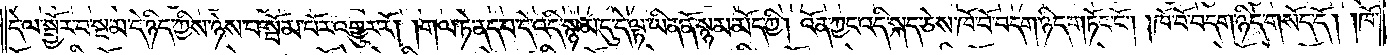དེ་ལ་སྦྱོར་བ་སྔ་མ་དེ་ཉིད་ཀྱིས་ཉེས་པ་སྦོམ་པོར་འགྱུར་རོ། །གལ་ཏེ་ནད་པ་དེ་འདི་སྙམ་དུ་དེ་ལྟ་ཡིན་ནོ་སྙམ་མོད་ཀྱི། འོན་ཀྱང་འདི་སྐད་ཅེས་ཁོ་བོ་བདག་ཉིད་གཏོང་ངོ༌། །ཁོ་བོ་བདག་ཉིད་གསོད་དོ། །ཁོ་
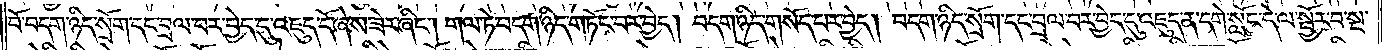བོ་བདག་ཉིད་སྲོག་དང་བྲལ་བར་བྱེད་དུ་འཇུད་དོ་ཞེས་ཟེར་ཞིང༌། གལ་ཏེ་བདག་ཉིད་གཏོང་བར་བྱེད། བདག་ཉིད་གསོད་པར་བྱེད། བདག་ཉིད་སྲོག་དང་བྲལ་བར་བྱེད་དུ་འཇུད་ན་དགེ་སློང་དེ་ལ་སྦྱོར་བ་སྔ་
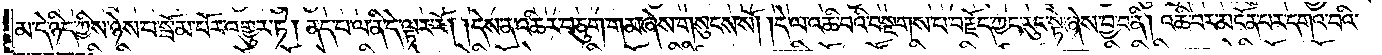མ་དེ་ཉིད་ཀྱིས་ཉེས་པ་སྦོམ་པོར་འགྱུར་ཏེ། ནད་པ་ལ་ནི་དེ་ལྟར་རོ། །དེས་ན་འཆིར་བཅུག་གམ་ཞེས་གསུངས་སོ། །དེ་ལ་འཆི་བའི་བསྔགས་པ་བརྗོད་ཀྱང་རུང་སྟེ་ཞེས་བྱ་བ་ནི། འཆི་བར་མངོན་པར་དགའ་བའི་
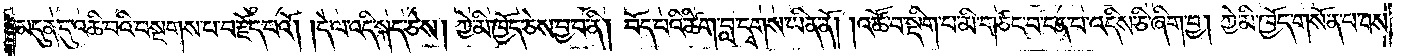མདུན་དུ་འཆི་བའི་བསྔགས་པ་བརྗོད་པའོ། །དེ་ལ་འདི་སྐད་ཅེས། ཀྱེ་མི་ཁྱོད་ཅེས་བྱ་བ་ནི། བོད་པའི་ཚིག་བླ་དྭགས་ཡིན་ནོ། །འཚོ་བ་སྡིག་པ་མི་གཙང་བ་ངན་པ་འདིས་ཅི་ཞིག་བྱ། ཀྱེ་མི་ཁྱོད་གསོན་པ་བས་
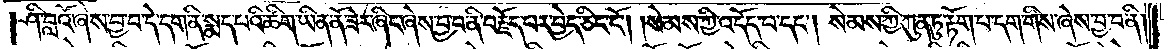ཤི་བླའོ་ཞེས་བྱ་བ་དེ་དག་ནི་སྨད་པའི་ཚིག་ཡིན་ནོ་ཟེར་ཞིང་ཞེས་བྱ་བ་ནི་བརྗོད་པར་བྱེད་ཅིང་ངོ༌། །སེམས་ཀྱི་འདོད་པ་དང༌། སེམས་ཀྱི་ཀུན་ཏུ་རྟོག་པ་དག་གིས་ཞེས་བྱ་བ་ནི།
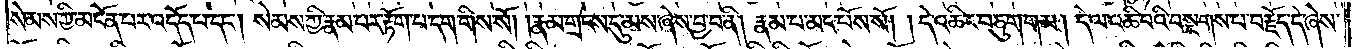སེམས་ཀྱི་མངོན་པར་འདོད་པ་དང༌། སེམས་ཀྱི་རྣམ་པར་རྟོག་པ་དག་གིས་སོ། །རྣམ་གྲངས་དུ་མས་ཞེས་བྱ་བ་ནི། རྣམ་པ་མང་པོས་སོ། །དེ་འཆིར་བཅུག་གམ། དེ་ལ་འཆི་བའི་བསྔགས་པ་བརྗོད་དེ་ཞེས་
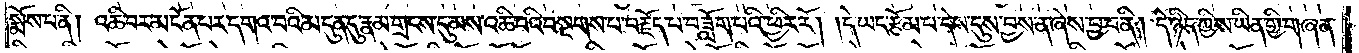སྨོས་པ་ནི། འཆི་བར་མངོན་པར་དགའ་བའི་མདུན་དུ་རྣམ་གྲངས་དུ་མས་འཆི་བའི་བསྔགས་པ་བརྗོད་པ་བཟློག་པའི་ཕྱིར་རོ། །དེ་ཡང་རྩོམ་པ་དེས་དུས་བྱས་ན་ཞེས་བྱ་བ་ནི། དེ་ཉིད་ཀྱིས་ཡིན་གྱི་གཞན་
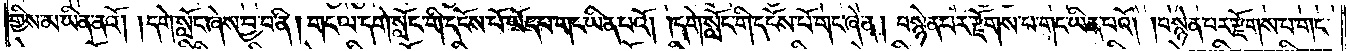གྱིས་མ་ཡིན་ནའོ། །དགེ་སློང་ཞེས་བྱ་བ་ནི། གང་ལ་དགེ་སློང་གི་དངོས་པོ་ཡོད་པ་གང་ཡིན་པའོ། །དགེ་སློང་གི་དངོས་པོ་གང་ཞེ་ན། བསྙེན་པར་རྫོགས་པ་གང་ཡིན་པའོ། །བསྙེན་པར་རྫོགས་པ་གང་
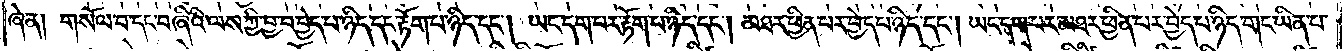ཞེ་ན། གསོལ་བ་དང་བཞིའི་ལས་ཀྱི་བྱ་བ་བྱེད་པ་ཉིད་དང་རྟོག་པ་ཉིད་དང༌། ཡང་དག་པར་རྟོག་པ་ཉིད་དང༌། མཐར་ཕྱིན་པར་བྱད་པ་ཉིད་དང༌། ཡང་དག་པར་མཐར་ཕྱིན་པར་བྱེད་པ་ཉིད་གང་ཡིན་པ་
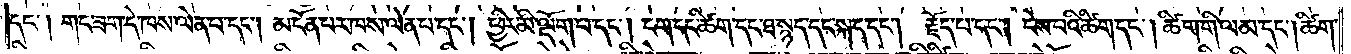དང༌། གང་ཟག་དེ་ཁས་ལེན་པ་དང༌། མངོན་པར་ཁས་ལེན་པ་དང༌། ཕྱིར་མི་ལྡོག་པ་དང༌། ངག་དང་ཚིག་དང་ཐ་སྙད་དང་སྐད་དང༌། རྗོད་པ་དང༌། ངེས་པའི་ཚིག་དང༌། ཚིག་གི་ལམ་དང༌། ཚིག་
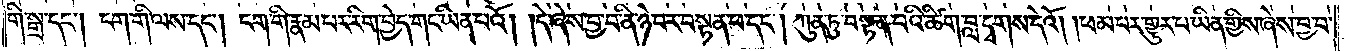གི་སྒྲ་དང༌། ངག་གི་ལས་དང༌། ངག་གི་རྣམ་པར་རིག་བྱེད་གང་ཡིན་པའོ། །དེ་ཞེས་བྱ་བ་ནི་ཉེ་བར་བསྟན་པ་དང༌། ཀུན་ཏུ་བསྟན་པའི་ཚིག་བླ་དྭགས་དེའོ། །ཕམ་པར་གྱུར་པ་ཡིན་གྱིས་ཞེས་བྱ་བ་
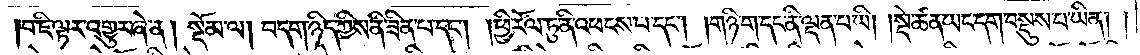བ་ཇི་ལྟར་འགྱུར་ཞེ་ན། སྡོམ་ལ། བདག་ཉིད་ཀྱིས་ནི་ཟིན་པ་དང༌། །ཕྱི་རོལ་ཏུ་ནི་འཕངས་པ་དང༌། །གཉི་ག་དང་ནི་ལྡན་པ་ཡི། །སྡེ་ཚན་ཡང་དག་བསྡུས་པ་ཡིན། །
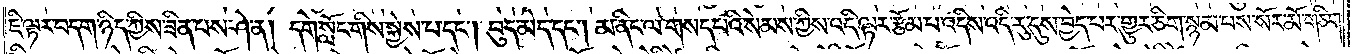ཇི་ལྟར་བདག་ཉིད་ཀྱིས་ཟིན་པས་ཤེ་ན། དགེ་སློང་གིས་སྐྱེས་པ་དང༌། བུད་མེད་དང༌། མ་ནིང་ལ་གསད་པའི་སེམས་ཀྱིས་འདི་ལྟར་རྩོམ་པ་འདིས་འདི་རུ་དུས་བྱེད་པར་གྱུར་ཅིག་སྙམ་པས་སོར་མོ་གཅིག་
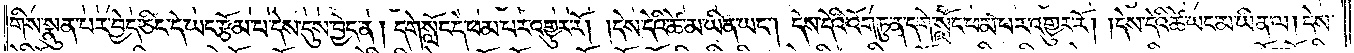གིས་སྣུན་པར་བྱེད་ཅིང་དེ་ཡང་རྩོམ་པ་དེས་དུས་བྱེད་ན། དགེ་སློང་དེ་ཕམ་པར་འགྱུར་རོ། །དེས་དེའི་ཚེ་མ་ཡིན་ཡང༌། དེས་དེའི་འོག་ཏུ་ན་དགེ་སློང་ཕམ་པར་འགྱུར་རོ། །དེས་དེའི་ཚེ་ཡང་མ་ཡིན་ལ། དེས་
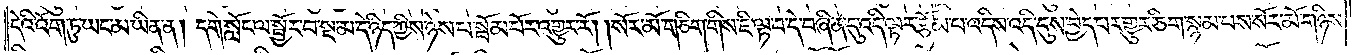དེའི་འོག་ཏུ་ཡང་མ་ཡིན་ན། དགེ་སློང་ལ་སྦྱོར་བ་སྔ་མ་དེ་ཉིད་ཀྱིས་ཉེས་པ་སྦོམ་པོར་འགྱུར་རོ། །སོར་མོ་གཅིག་གིས་ཇི་ལྟ་བ་དེ་བཞིན་དུ་འདི་ལྟར་རྩོམ་པ་འདིས་འདི་དུས་བྱེད་པར་གྱུར་ཅིག་སྙམ་པས་སོར་མོ་གཉིས་
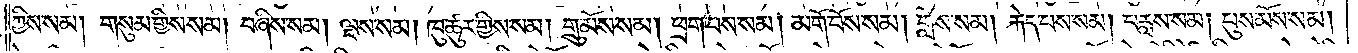ཀྱིས་སམ། གསུམ་གྱིས་སམ། བཞིས་སམ། ལྔས་སམ། ཁུ་ཚུར་གྱིས་སམ། གྲུ་མོས་སམ། ཕྲག་པས་སམ། མགོ་བོས་སམ། གློས་སམ། རྐེད་པས་སམ། བརླས་སམ། པུས་མོས་སམ།
